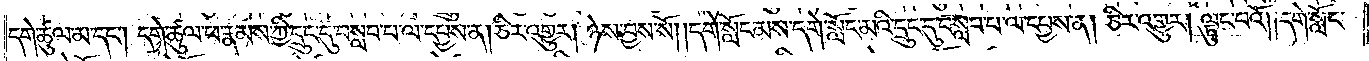དགེ་ཚུལ་མ་དང༌། དགེ་ཚུལ་ཕ་རྣམས་ཀྱི་དྲུང་དུ་བསླབ་པ་ལ་དཔྱས་ན། ཅིར་འགྱུར། ཉེས་བྱས་སོ། །དགེ་སློང་མས་དགེ་སློང་མའི་དྲུང་དུ་བསླབ་པ་ལ་དཔྱས་ན། ཅིར་འགྱུར། ལྟུང་བའོ། །དགེ་སློང་
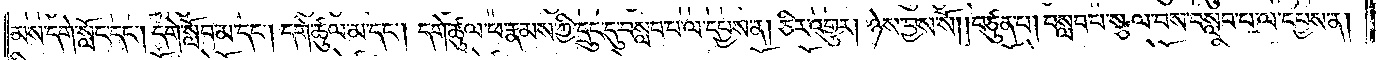མས་དགེ་སློང་དང༌། དགེ་སློབ་མ་དང༌། དགེ་ཚུལ་མ་དང༌། དགེ་ཚུལ་ཕ་རྣམས་ཀྱི་དྲུང་དུ་བསླབ་པ་ལ་དཔྱས་ན། ཅིར་འགྱུར། ཉེས་བྱས་སོ། །བཙུན་པ། བསླབ་པ་སྩལ་བས་བསླབ་པ་ལ་དཔྱས་ན།
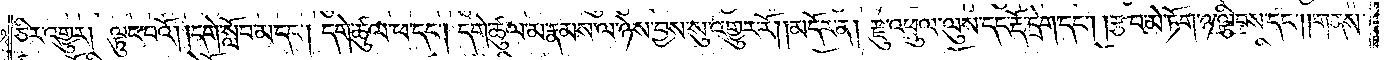ཅིར་འགྱུར། ལྟུང་བའོ། །དགེ་སློབ་མ་དང༌། དགེ་ཚུལ་ཕ་དང༌། དགེ་ཚུལ་མ་རྣམས་ལ་ཉེས་བྱས་སུ་འགྱུར་རོ།    །མདོར་ན། རྫུ་འཕྲུལ་ལུས་དང་རྡོ་དྲེག་དང༌། །རྩ་བ་མེ་ཏོག་ཉ་ལྕིབས་དང༌། །གནས་
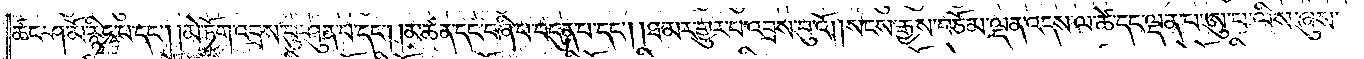ཚང་ཤ་མོ་རྙིང་པ་དང༌། །མེ་ཏོག་འབྲས་བུ་ཤུན་པ་དང༌། །མཚན་དང་བཞི་པ་བདུན་པ་དང༌། །ཐ་མར་གྱུར་པ་འབྲས་བུ་འོ། །སངས་རྒྱས་བཅོམ་ལྡན་འདས་ལ་ཚེ་དང་ལྡན་པ་ཨུ་པ་ལིས་ཞུས་
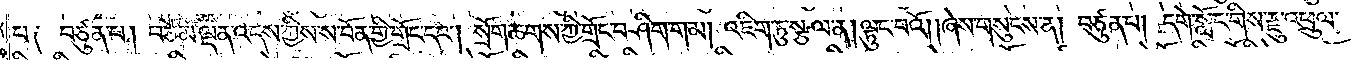པ༑ བཙུན་པ། བཅོམ་ལྡན་འདས་ཀྱིས་ས་བོན་གྱི་གྲོང་དང༌། སྲོག་ཆགས་ཀྱི་གྲོང་བཤིག་གམ། འཇིག་ཏུ་སྩལ་ན། ལྟུང་བའོ། །ཞེས་གསུངས་ན། བཙུན་པ། དགེ་སློང་གིས་རྫུ་འཕྲུལ་
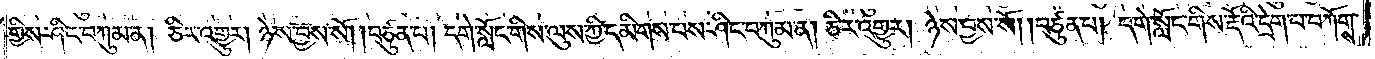གྱིས་ཤིང་བཀུམ་ན། ཅིར་འགྱུར། ཉེས་བྱས་སོ། །བཙུན་པ། དགེ་སློང་གིས་ལུས་ཀྱི་དམིགས་པས་ཤིང་བཀུམ་ན། ཅིར་འགྱུར། ཉེས་བྱས་སོ། །བཙུན་པ། དགེ་སློང་གིས་རྡོའི་དྲེག་པ་བཀོགས་
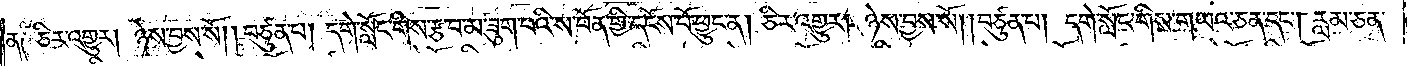ན༑ ཅིར་འགྱུར། ཉེས་བྱས་སོ། །བཙུན་པ། དགེ་སློང་གིས་རྩ་བ་མ་ཟུག་པའི་ས་བོན་གྱི་དངོས་པོ་ཕྱུང་ན། ཅིར་འགྱུར། ཉེས་བྱས་སོ། །བཙུན་པ། དགེ་སློང་གིས་གཡའ་ཅན་དང༌། རླམ་ཅན་
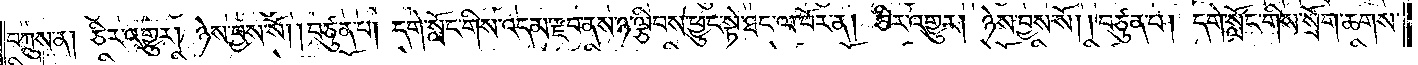བཀྲུས་ན། ཅིར་འགྱུར། ཉེས་བྱས་སོ། །བཙུན་པ། དགེ་སློང་གིས་འདམ་རྫབ་ནས་ཉ་ལྕིབས་ཕྱུང་སྟེ་ཐང་ལ་བོར་ན། ཅིར་འགྱུར། ཉེས་བྱས་སོ། །བཙུན་པ། དགེ་སློང་གིས་སྲོག་ཆགས་
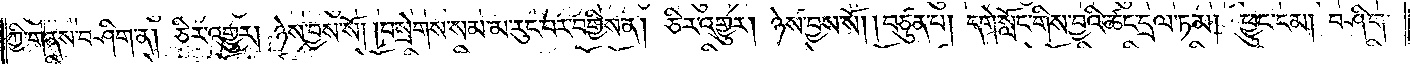ཀྱི་གནས་བཤིག་ན། ཅིར་འགྱུར། ཉེས་བྱས་སོ། །བསྲེགས་སམ་མ་རུང་བར་བགྱིས་ན། ཅིར་འགྱུར། ཉེས་བྱས་སོ། །བཙུན་པ། དགེ་སློང་གིས་བྱའི་ཚང་དྲལ་ཏམ། ཕྱུང་ངམ། བཤིག་
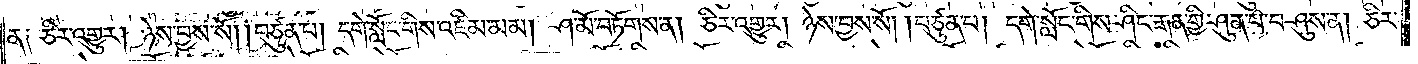ན༑ ཅིར་འགྱུར། ཉེས་བྱས་སོ། །བཙུན་པ། དགེ་སློང་གིས་འཛིམ་མམ། ཤ་མོ་བཏོགས་ན། ཅིར་འགྱུར། ཉེས་བྱས་སོ། །བཙུན་པ། དགེ་སློང་གིས་ཤིང་རྒན་གྱི་ཤུན་པ་བཤུས་ན། ཅིར་
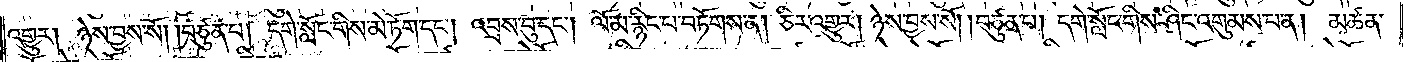འགྱུར། ཉེས་བྱས་སོ། །བཙུན་པ། དགེ་སློང་གིས་མེ་ཏོག་དང༌། འབྲས་བུ་དང༌། ལོ་མ་རྙིང་པ་བཏོགས་ན། ཅིར་འགྱུར། ཉེས་བྱས་སོ། །བཙུན་པ། དགེ་སློང་གིས་ཤིང་འགུམས་པ་ན། མཚན་
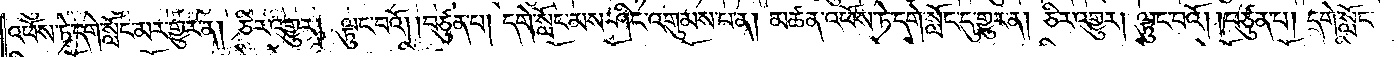འཕོས་ཏེ་དགེ་སློང་མར་གྱུར་ན། ཅིར་འགྱུར། ལྟུང་བའོ། །བཙུན་པ། དགེ་སློང་མས་ཤིང་འགུམས་པ་ན། མཚན་འཕོས་ཏེ་དགེ་སློང་དུ་གྱུར་ན། ཅིར་འགྱུར། ལྟུང་བའོ། །བཙུན་པ། དགེ་སློང་
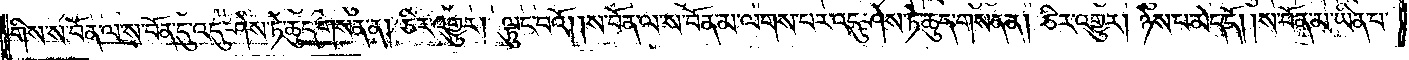གིས་ས་བོན་ལ་ས་བོན་དུ་འདུ་ཤེས་ཏེ་ཆུད་གསན་ན། ཅིར་འགྱུར། ལྟུང་བའོ། །ས་བོན་ལ་ས་བོན་མ་ལགས་པར་འདུ་ཤེས་ཏེ་ཆུད་གསན་ན། ཅིར་འགྱུར། ཉེས་པ་མེད་དོ། །ས་བོན་མ་ཡིན་པ་
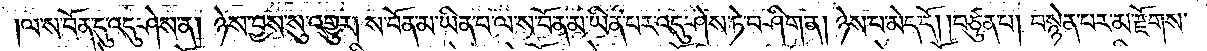།ལ་ས་བོན་དུ་འདུ་ཤེས་ན། ཉེས་བྱས་སུ་འགྱུར། ས་བོན་མ་ཡིན་པ་ལ་ས་བོན་མ་ཡིན་པར་འདུ་ཤེས་ཏེ་བཤིག་ན། ཉེས་པ་མེད་དོ། །བཙུན་པ། བསྙེན་པར་མ་རྫོགས་
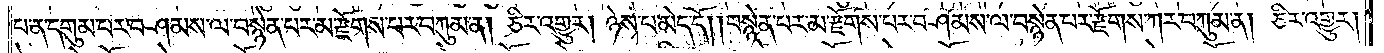པ་ན་དགུམ་པར་བཤམས་ལ་བསྙེན་པར་མ་རྫོགས་པར་བཀུམ་ན། ཅིར་འགྱུར། ཉེས་པ་མེད་དོ། །བསྙེན་པར་མ་རྫོགས་པར་བཤམས་ལ་བསྙེན་པར་རྫོགས་ཀར་བཀུམ་ན། ཅིར་འགྱུར།
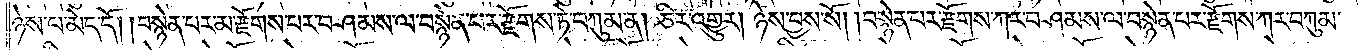ཉེས་པ་མེད་དོ། །བསྙེན་པར་མ་རྫོགས་པར་བཤམས་ལ་བསྙེན་པར་རྫོགས་ཏེ་བཀུམ་ན། ཅིར་འགྱུར། ཉེས་བྱས་སོ། །བསྙེན་པར་རྫོགས་ཀར་བཤམས་ལ་བསྙེན་པར་རྫོགས་ཀར་བཀུམ་
